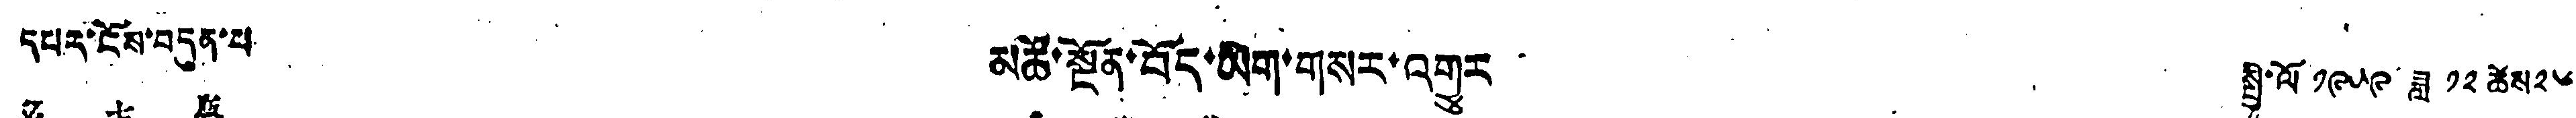དཔར་ངོས་བདུན་པ། མཚོ་སྔོན་བོད་ཡིག་གསར་འགྱུར སྤྱི་ལོ ༡༩༥༩ ཟླ ༡༢ ཚེས ༢༦
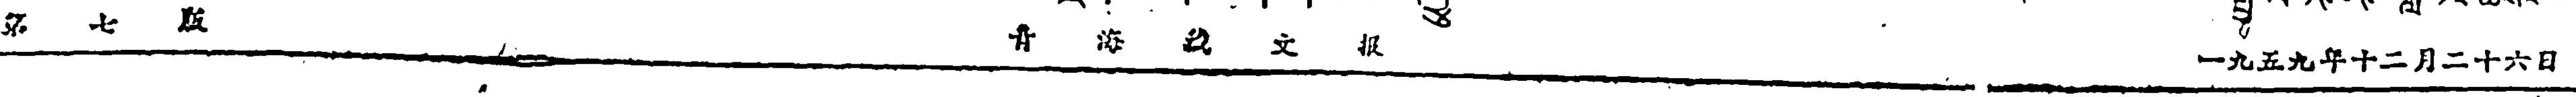第 七 版 青 海 藏 文 报 一九五九年十二月二十六日
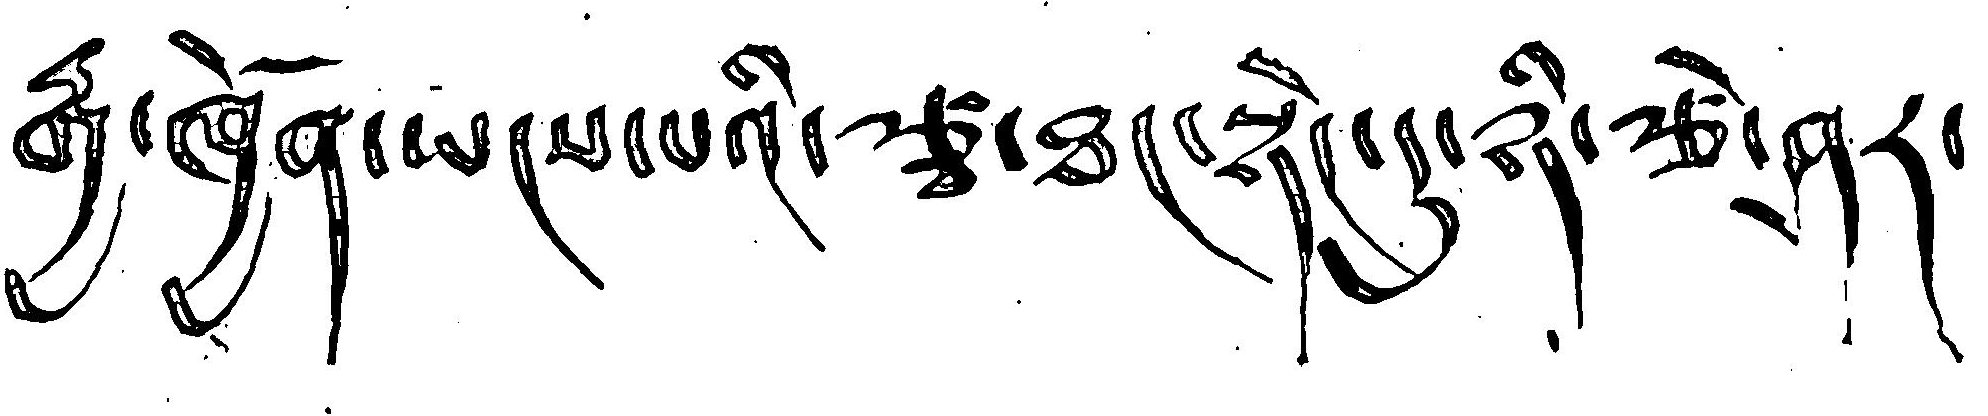རྒྱ་ཁྱོན་ཡངས་པའི་རྩྭ་ཐང་སྟེང་དུ་ཉི་རྩེ་ཤར་
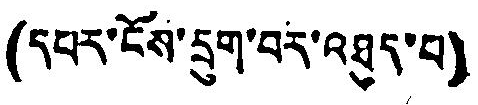(དཔར་ངོས་དྲུག་བར་འཐུད་པ)
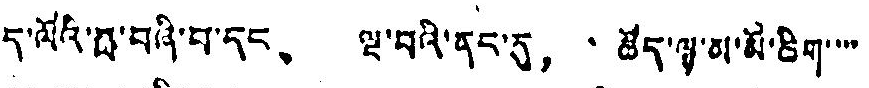ད་ལོའི་བླ་བཞི་པ་དང、 ལྔ་བའི་ནང་དུ， ཚོད་ལྷ་མ་མོ་ཆིག་་་་་
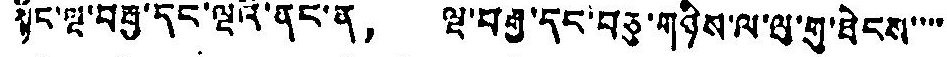སྦྱོང་ལྔ་བསུ་དང་ལྔའི་ནང་ན， ལྔ་བརྒྱ་དང་བཅུ་གཉིས་ལ་ལུ་གུ་ཐེངས་་་་
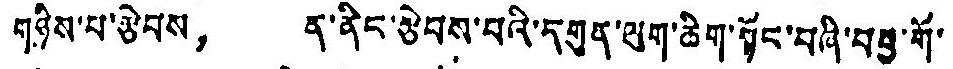གཉིས་པ་རྩེབས， ན་ནིང་རྩེབས་པའི་དགུན་ལུག་ཆིག་སྟོང་བཞི་བབྱ་གོ་
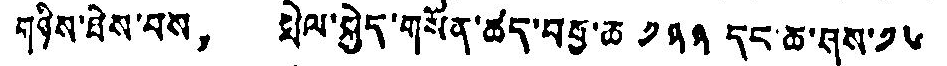གཤིས་བེས་པས， སྤེལ་སྐྱེད་གསོན་ཚད་བརྒྱ་ཆ ༡༢༣ དང་ཆ་ཤས་༡༦
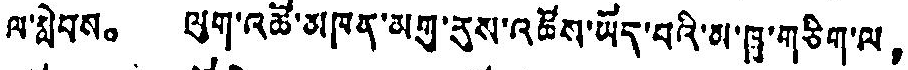ལ་སླེབས。 ལུག་འཚོ་མཁན་མགུ་རུས་འཚོས་ཡོད་པའི་མ་ཁྱུ་གཅིག་ལ，
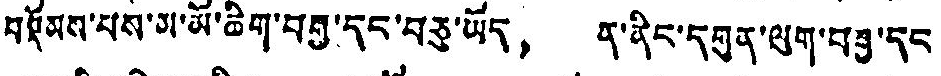བསྡོམས་པས་མ་མོ་ཆིག་བརྒྱ་དང་བཅུ་ཡོད， ན་ནིང་དགུན་ལུག་བརྒྱ་དང་
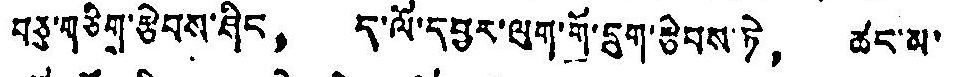བཅུ་གཅིག་རྩེབས་ཤིང， ད་ལོ་དབྱར་ལུག་གོ་དྲུག་རྩེབས་ཏེ， ཚང་མ་
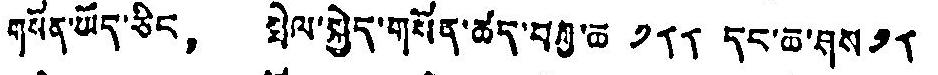གསོན་ཡོད་ཅིང， སྤེལ་སྐྱེད་གསོན་ཚད་བརྐྱ་ཆ ༡༨༨ དང་ཆ་ཤས ༡༨
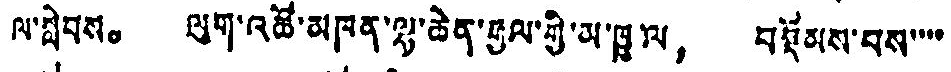ལ་སླེབས。 ལུག་འཚོ་མཁན་ལྷ་ཆེན་རྒྱལ་གྱི་མ་ཁྱུལ， བསྡོམས་པས་་་་
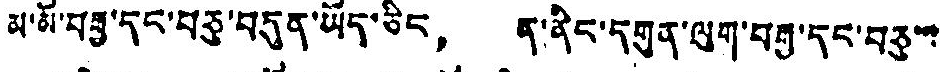མ་མོ་བརྒྱ་དང་བཅུ་བདུན་ཡོད་ཅིང， ན་ནིང་དགུན་ལུག་བརྒྱ་དང་བཅུ་་་
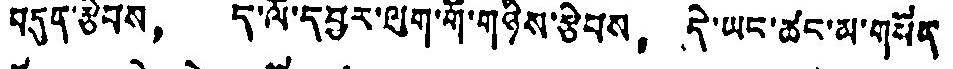བདུད་རྩེབས， ད་ལོ་དབྱར་ལུག་གོ་གཉིས་རྩེབས， དེ་ཡང་ཚང་མ་གསོན་
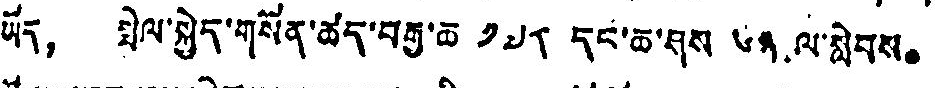ཡོད， སྤེལ་སྐྱེད་གསོན་ཆད་བརྒྱ་ཆ ༡༧༨ དང་ཆ་ཤས ༦༣ ལ་སླེབས。
